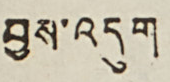བྱས་འདུག
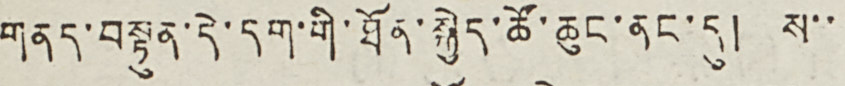གནད་བསྟུན་དེ་དག་གི་ཐོན་སྐྱེད་ཚོ་ཆུང་ནང་དུ། ས་་
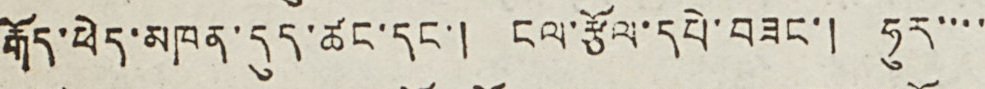རྒོད་ཕེད་མཁན་དུད་ཚང་དང་། ངལ་རྩོལ་དཔེ་བཟང་། ཧུར་་་་
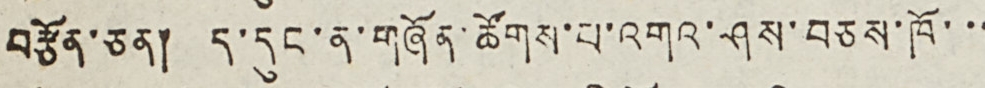བརྩོན་ཅན། ད་དུང་ན་གཞོན་ཚོགས་པ་འགའ་ཤས་བཅས་ཁོ་་་
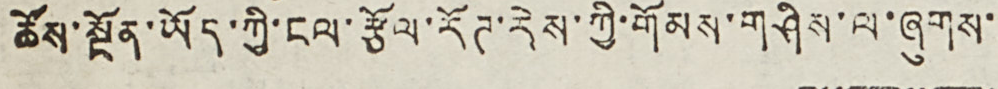ཚོས་སྔོན་ཡོད་ཀྱི་ངལ་རྩོལ་རོཊ་རེས་ཀྱི་གོམས་གཤིས་ལ་ཞུགས་
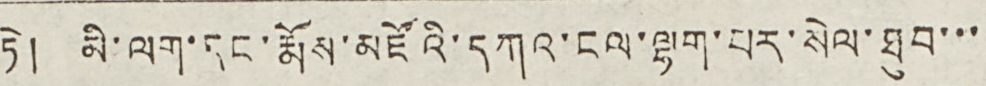ཏེ། མེ་ལག་དང་རྨོས་མཛོའི་དཀའ་ངལ་ལྷག་པར་སེལ་ཐུབ་་་
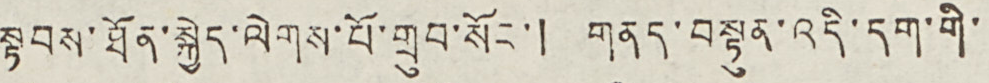སྟབས་ཐོན་སྐྱེད་ལེགས་པོ་གྲུབ་སོང་། གནད་བསྟུན་འདི་དག་གི་
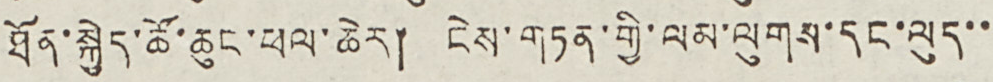ཐོན་སྐྱེད་ཚོ་ཆུང་ཕལ་ཆེར། ངེས་གཏན་གྱི་ལམ་ལུགས་དང་ལུད་་
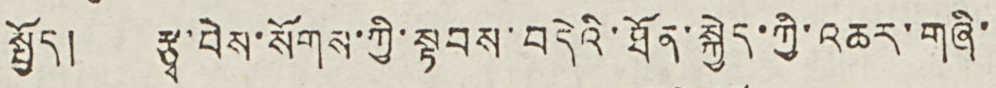སྤྱོད། རྩྭ་བེས་སོགས་ཀྱི་སྟབས་བདེའི་ཐོན་སྐྱེད་ཀྱི་འཆར་གཞི་
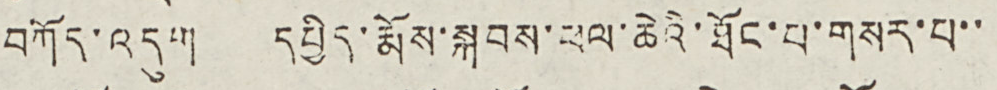བཀོད་འདུག དཔྱིད་རྨོས་སྐབས་ཕལ་ཆེའི་ཐོང་པ་གསར་པ་་
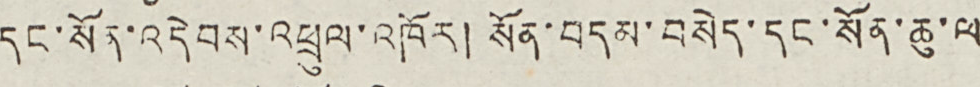དང་སོན་འདེབས་འཕྲུལ་འཁོར། སོན་བདམ་བསེད་དང་སོན་ཆུ་ལ
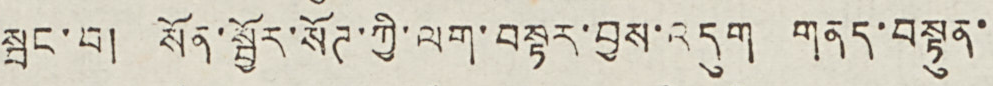སྦང་བ། སོན་སྦྱོར་སོཊ་ཀྱི་ལག་བསྟར་བྱས་འདུག གནད་བསྟུན་
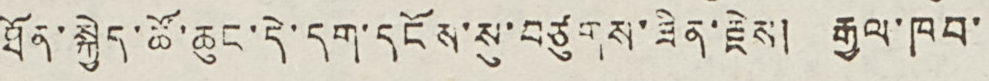ཐོན་སྐྱེད་ཚོ་ཆུང་དེ་དག་དངོས་སུ་བཙུགས་ཟིན་རྗེས། རྒྱལ་ཁབ་
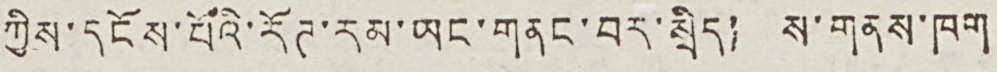ཀྱིས་དངོས་པོའི་རོཊ་རམ་ཡང་གནང་བར་སྲིད། ས་གནས་ཁག
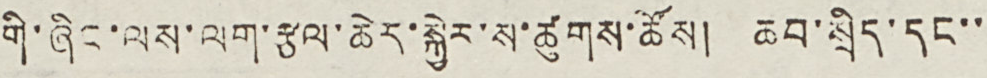གི་ཞིང་ལས་ལག་རྩལ་ཆེར་སྐྱེར་ས་ཚུགས་ཚོས། ཆབ་སྲིད་དང་་
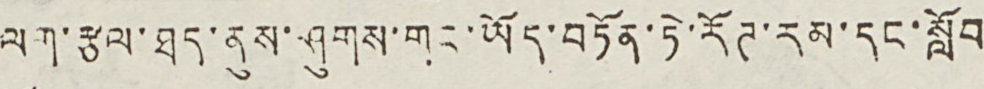ལག་རྩལ་ཐད་ནུས་ཤུགས་གང་ཡོད་བཏོན་ཏེ་རོཊ་རམ་དང་སློབ
